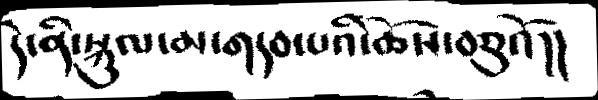དེ་ནི་སྐུལ་མ་གདབ་པའི་ཆོས་བཅུའོ།།
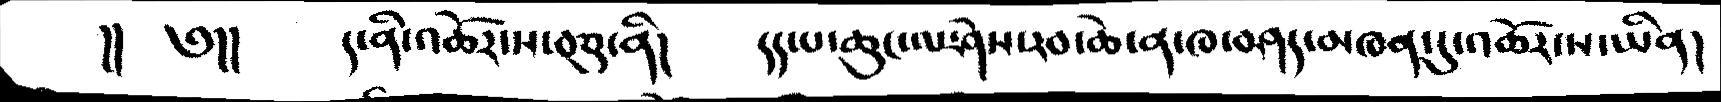།།   ༅།།  ད་ནི་འཆོར་ས་བཅུ་ནི།  དད་པ་ཆུང་ལ་ཤེས་རབ་ཆེ་ན་ཁ་བཤད་མཁན་དུ་འཆོར་ས་ཡིན།
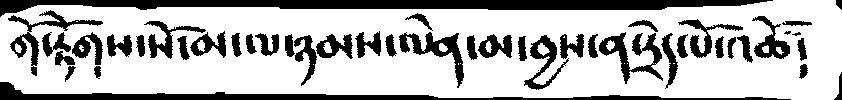གོ་རྟོགས་སོ་མ་ལ་ཉམས་ལེན་མ་བྱས་ན་དྲེད་པོ་འཚོ།
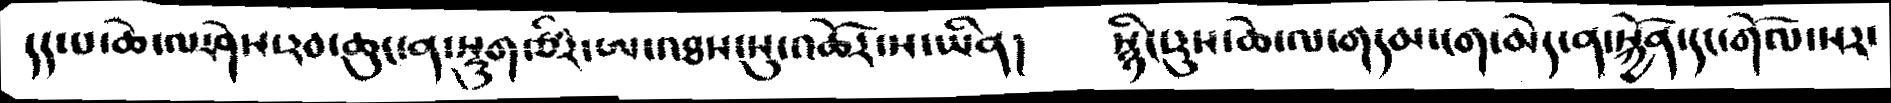དད་པ་ཆེ་ལ་ཤེས་རབ་ཆུང་ན་སྡུག་ཙིར་ཨ་འཐས་སུ་འཆོར་ས་ཡིན།  སྙིང་རུས་ཆེ་ལ་གདམ་ངག་མེད་ན་སྐྱོན་དང་གོལ་སར་
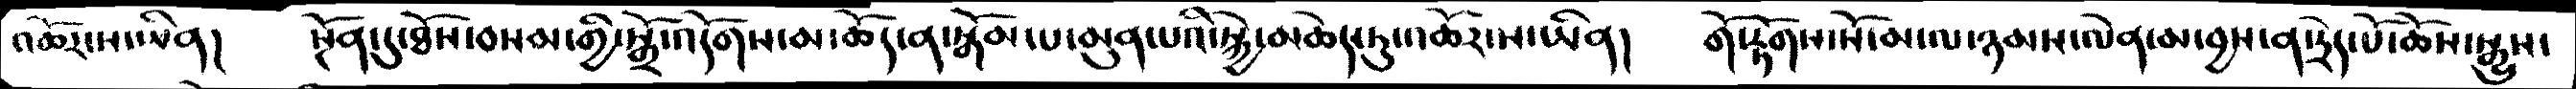འཆོར་ས་ཡིན།  སྔོན་དུ་ཐོས་བསམ་གྱི་སྒྲོ་འདོགས་མ་ཆོད་ན་སྒོམ་པ་མུན་པའི་སྐྱེ་མཆེད་ཏུ་འཆོར་ས་ཡིན།  གོ་རྟོགས་སོ་མ་ལ་ཉམས་ལེན་མ་བྱས་ན་དྲེད་པོ་ཆོས་སྒྱུས་
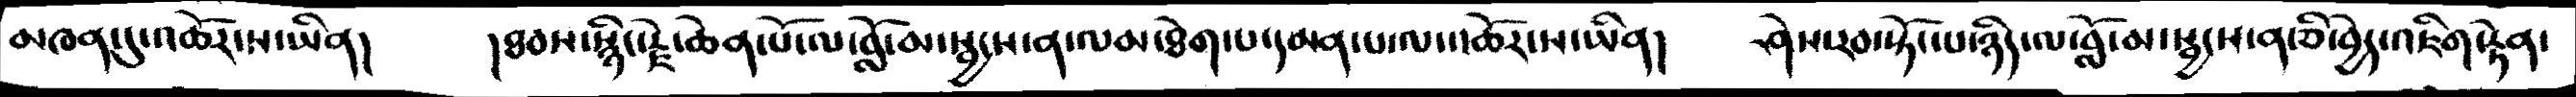མཁན་དུ་འཆོས་ས་ཡིན།  །ཐབས་སྙིང་རྗེ་ཆེན་པོ་ལ་བློ་མ་སྦྱངས་ན་ལམ་ཐེག་པ་དམན་པ་ལ་འཆོར་ས་ཡིན།  ཤེས་རབ་སྟོང་པ་ཉིད་ལ་བློ་མ་སྦྱངས་ན་ཅི་བྱེད་འཇིག་རྟེན་
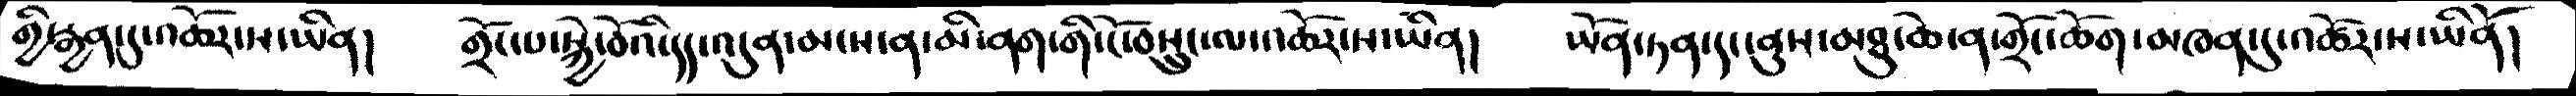གྱི་རྒྱན་དུ་འཆོར་ས་ཡིན།  གྲོང་པ་སྐྱེ་བོའི་དད་འདུན་མངས་ན་མི་ནད་གི་ངོ་བསྲུ་ལ་འཆོར་ས་ཡིན།  ཡོན་ཏན་དང་ནུས་མཐུ་ཆེ་ན་གྲོང་ཆོག་མཁན་དུ་འཚོར་ས་ཡིནོ།
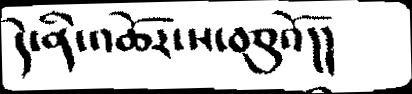དེ་ནི་འཆོར་ས་བཅུའོ།།
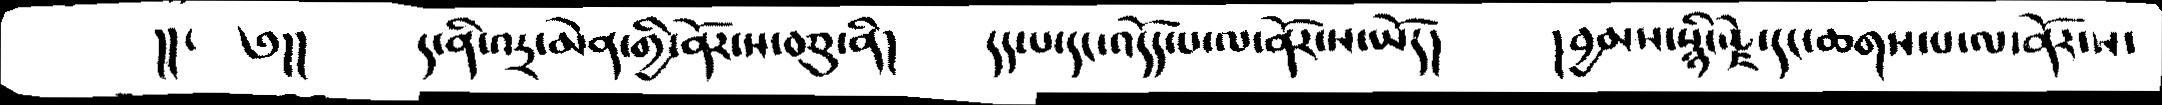།།  ༅།།  ད་ནི་འདྲ་མེན་གྱི་ནོར་ས་བཅུ་ནི།  དད་པ་དང་འདོད་པ་ལ་ནོར་ས་ཡོད།  །བྱམས་སྙིང་རྗེ་དང་ཆགས་པ་ལ་ནོར་ས་
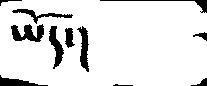ཡོད་།
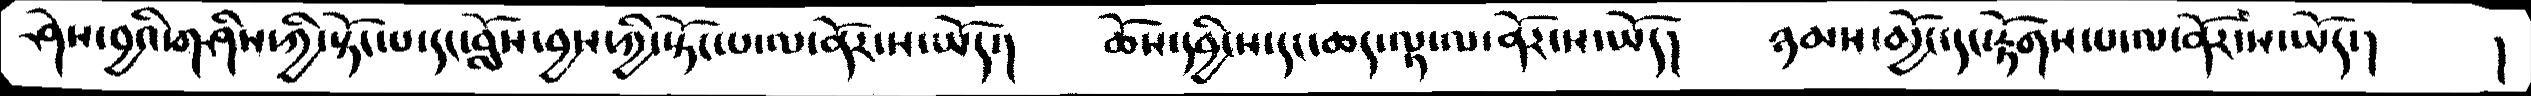ཤེས་བྱའི་གཤིས་ཀྱི་སྟོང་པ་དང་བློས་བྱས་ཀྱི་སྟོང་པ་ལ་ནོར་ས་ཡོད་།  ཆོས་དབྱིངས་དང་ཆད་ལྟ་ལ་ནོར་ས་ཡོད།  ཉམས་མྱོང་དང་རྟོགས་པ་ལ་ནོར་ས་ཡོད་།   །
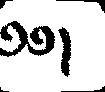༄༅།
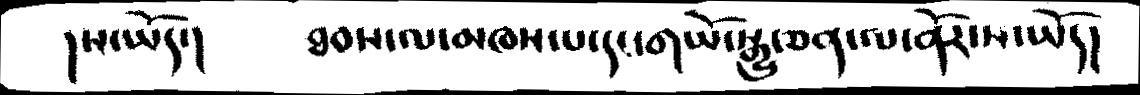།ས་ཡོད་།  ཐབས་ལ་མཁས་པ་དང་གཡོ་སྒྱུ་ཅན་ལ་ནོར་ས་ཡོད།
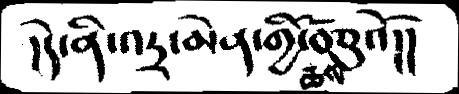།དེ་ནི་འདྲ་མེན་གྱི་ཆོས་བཅུའོ།།
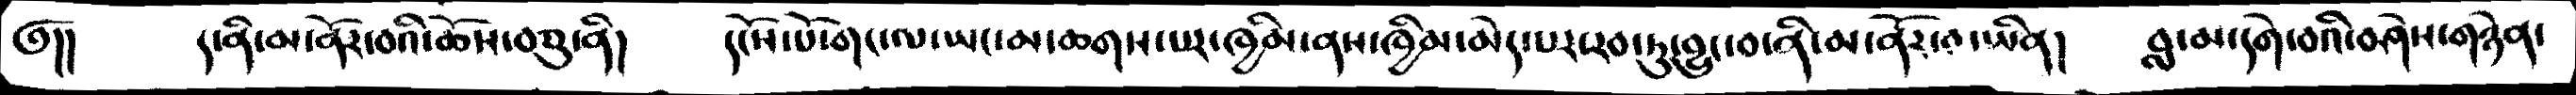༅།།   ད་ནི་ནོར་བའི་ཆོས་བཅུ་ནི།  དངོས་པོ་གང་ལ་ཡང་མ་ཆགས་པར་ཁྱིམ་ནས་ཁྱིམ་མེད་པར་རབ་ཏུ་བྱུང་བ་ནི་མ་ནོར་བ་ཡིན།  བླ་མ་དགེ་བའི་བཤེས་གཉེན་
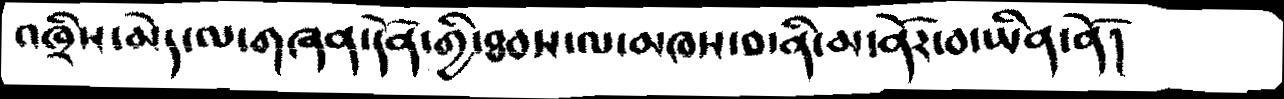འཁྲིས་མེད་ལ་གཞན་དོན་གྱི་ཐབས་ལ་མཁས་བ་ནི་མ་ནོར་བ་ཡིན་ནོ།
